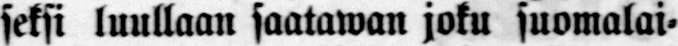seksi luullaan säätäwän joku suomalai-
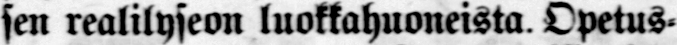sen realilyseon luokkahuoneista. Opetus-
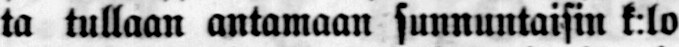ta tullaan antamaan sunnuntaisin k:lo
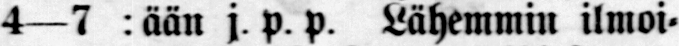4 —7 :ään j P P Lähemmin ilmoi-
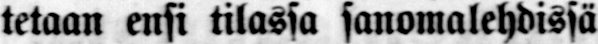tetaan ensi tilassa sanomalehdissä
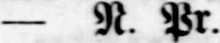— N. Pr.
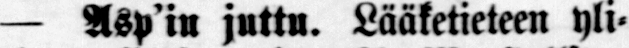— Asp 'in juttu. Lääketieteen yli-
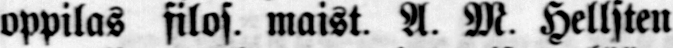oppilas filos. maist. A. M Hellsten
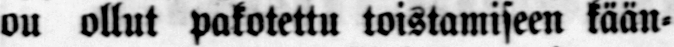ou ollut pakotettu toistamiseen kään-
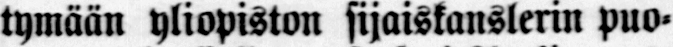tymään yliopiston sijaiskanslerin puo-
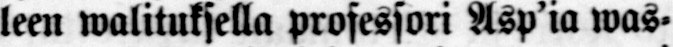leen walituksella prosessori Asp'ia was-
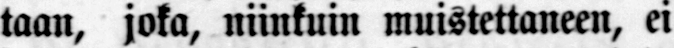taan, joka, niinkuin muistettaneen, ei
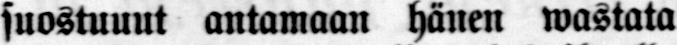suostuuut antamaan hänen wastata
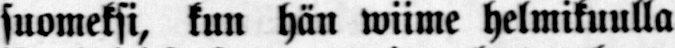suomeksi, kun hän wiime helmikuulla
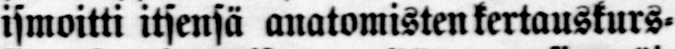ismoitti itsensä anatomisten kertauskurs-
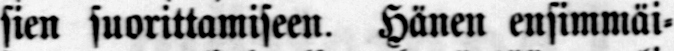sien suorittamiseen. Hänen ensimmäi-
